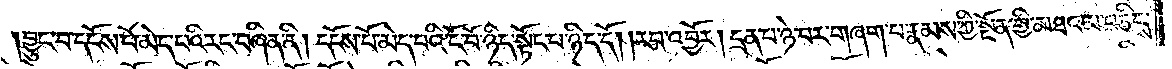བྱུང་བ་དངོས་པོ་མེད་པའི་རང་བཞིན་ནི། དངོས་པོ་མེད་པའི་ངོ་བོ་ཉིད་སྟོང་པ་ཉིད་དོ། །རབ་འབྱོར། དྲན་པ་ཉེ་བར་གཞག་པ་རྣམས་ཀྱི་སྔོན་གྱི་མཐའ་མ་བཅིངས་
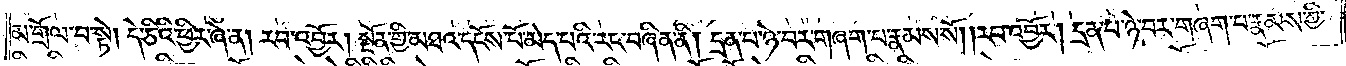མ་གྲོལ་བ་སྟེ། དེ་ཅིའི་ཕྱིར་ཞེ་ན། རབ་འབྱོར། སྔོན་གྱི་མཐའ་དངོས་པོ་མེད་པའི་རང་བཞིན་ནི། དྲན་པ་ཉེ་བར་གཞག་པ་རྣམས་སོ། །རབ་འབྱོར། དྲན་པ་ཉེ་བར་གཞག་པ་རྣམས་ཀྱི་
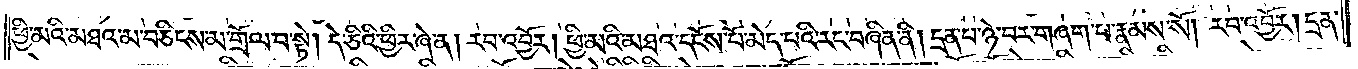ཕྱི་མའི་མཐའ་མ་བཅིངས་མ་གྲོལ་བ་སྟེ། དེ་ཅིའི་ཕྱིར་ཞེ་ན། རབ་འབྱོར། ཕྱི་མའི་མཐའ་དངོས་པོ་མེད་པའི་རང་བཞིན་ནི། དྲན་པ་ཉེ་བར་གཞག་པ་རྣམས་སོ། །རབ་འབྱོར། དྲན་
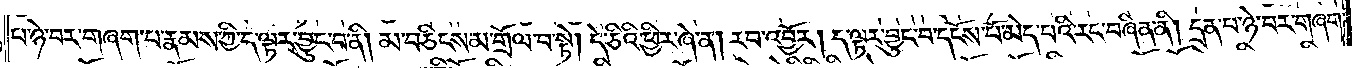པ་ཉེ་བར་གཞག་པ་རྣམས་ཀྱི་ད་ལྟར་བྱུང་བ་ནི། མ་བཅིངས་མ་གྲོལ་བ་སྟེ། དེ་ཅིའི་ཕྱིར་ཞེ་ན། རབ་འབྱོར། ད་ལྟར་བྱུང་བ་དངོས་པོ་མེད་པའི་རང་བཞིན་ནི། དྲན་པ་ཉེ་བར་གཞག་
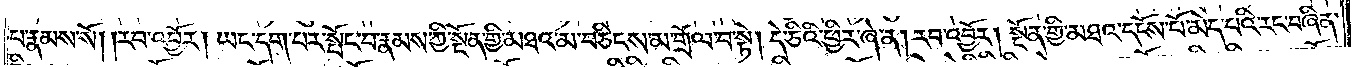པ་རྣམས་སོ། །རབ་འབྱོར། ཡང་དག་པར་སྤོང་བ་རྣམས་ཀྱི་སྔོན་གྱི་མཐའ་མ་བཅིངས་མ་གྲོལ་བ་སྟེ། དེ་ཅིའི་ཕྱིར་ཞེ་ན། རབ་འབྱོར། སྔོན་གྱི་མཐའ་དངོས་པོ་མེད་པའི་རང་བཞིན་
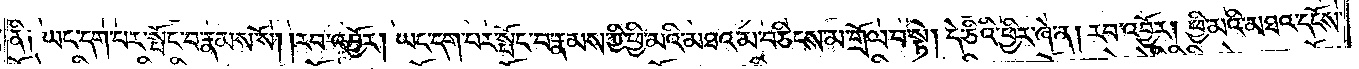ནི༑ ཡང་དག་པར་སྤོང་བ་རྣམས་སོ། །རབ་འབྱོར། ཡང་དག་པར་སྤོང་བ་རྣམས་ཀྱི་ཕྱི་མའི་མཐའ་མ་བཅིངས་མ་གྲོལ་བ་སྟེ། དེ་ཅིའི་ཕྱིར་ཞེ་ན། རབ་འབྱོར། ཕྱི་མའི་མཐའ་དངོས་
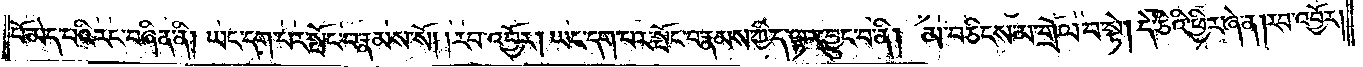པོ་མེད་པའི་རང་བཞིན་ནི། ཡང་དག་པར་སྤོང་བ་རྣམས་སོ། །རབ་འབྱོར། ཡང་དག་པར་སྤོང་བ་རྣམས་ཀྱི་ད་ལྟར་བྱུང་བ་ནི། མ་བཅིངས་མ་གྲོལ་བ་སྟེ། དེ་ཅིའི་ཕྱིར་ཞེ་ན། རབ་འབྱོར།
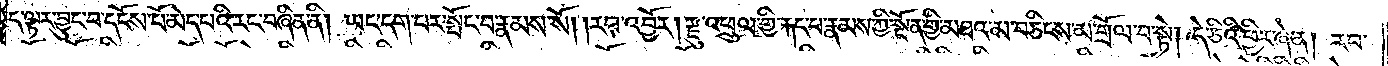ད་ལྟར་བྱུང་བ་དངོས་པོ་མེད་པའི་རང་བཞིན་ནི། ཡང་དག་པར་སྤོང་བ་རྣམས་སོ། །རབ་འབྱོར། རྫུ་འཕྲུལ་གྱི་རྐང་པ་རྣམས་ཀྱི་སྔོན་གྱི་མཐའ་མ་བཅིངས་མ་གྲོལ་བ་སྟེ། དེ་ཅིའི་ཕྱིར་ཞེ་ན། རབ་
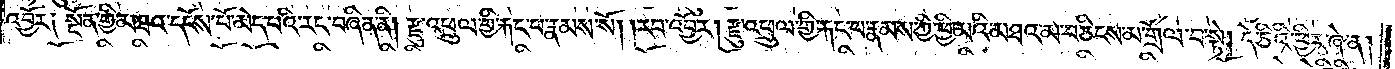འབྱོར༑ སྔོན་གྱི་མཐའ་དངོས་པོ་མེད་པའི་རང་བཞིན་ནི། རྫུ་འཕྲུལ་གྱི་རྐང་པ་རྣམས་སོ། །རབ་འབྱོར། རྫུ་འཕྲུལ་གྱི་རྐང་པ་རྣམས་ཀྱི་ཕྱི་མའི་མཐའ་མ་བཅིངས་མ་གྲོལ་བ་སྟེ། དེ་ཅིའི་ཕྱིར་ཞེ་ན།
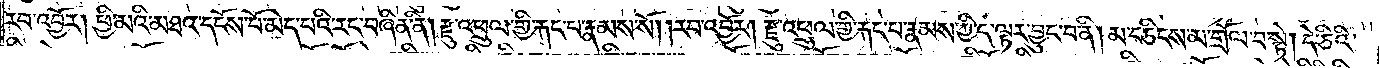རབ་འབྱོར། ཕྱི་མའི་མཐའ་དངོས་པོ་མེད་པའི་རང་བཞིན་ནི། རྫུ་འཕྲུལ་གྱི་རྐང་པ་རྣམས་སོ། །རབ་འབྱོར། རྫུ་འཕྲུལ་གྱི་རྐང་པ་རྣམས་ཀྱི་ད་ལྟར་བྱུང་བ་ནི། མ་བཅིངས་མ་གྲོལ་བ་སྟེ། དེ་ཅིའི་
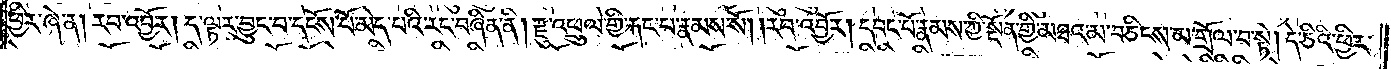ཕྱིར་ཞེ་ན། རབ་འབྱོར། ད་ལྟར་བྱུང་བ་དངོས་པོ་མེད་པའི་རང་བཞིན་ནི། རྫུ་འཕྲུལ་གྱི་རྐང་པ་རྣམས་སོ། །རབ་འབྱོར། དབང་པོ་རྣམས་ཀྱི་སྔོན་གྱི་མཐའ་མ་བཅིངས་མ་གྲོལ་བ་སྟེ། དེ་ཅིའི་ཕྱིར་
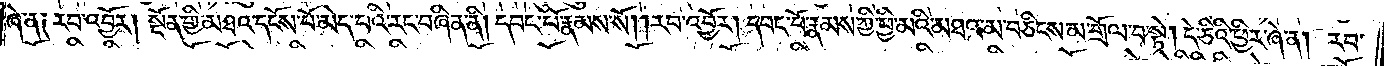ཞེ་ན༑ རབ་འབྱོར། སྔོན་གྱི་མཐའ་དངོས་པོ་མེད་པའི་རང་བཞིན་ནི། དབང་པོ་རྣམས་སོ། །རབ་འབྱོར། དབང་པོ་རྣམས་ཀྱི་ཕྱི་མའི་མཐའ་མ་བཅིངས་མ་གྲོལ་བ་སྟེ། དེ་ཅིའི་ཕྱིར་ཞེ་ན། རབ་
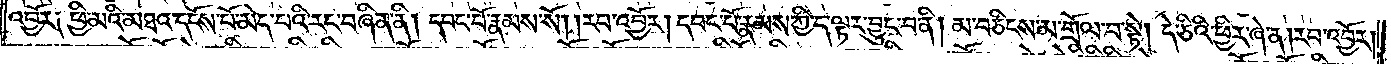འབྱོར༑ ཕྱི་མའི་མཐའ་དངོས་པོ་མེད་པའི་རང་བཞིན་ནི། དབང་པོ་རྣམས་སོ། །རབ་འབྱོར། དབང་པོ་རྣམས་ཀྱི་ད་ལྟར་བྱུང་བ་ནི། མ་བཅིངས་མ་གྲོལ་བ་སྟེ། དེ་ཅིའི་ཕྱིར་ཞེ་ན། རབ་འབྱོར།
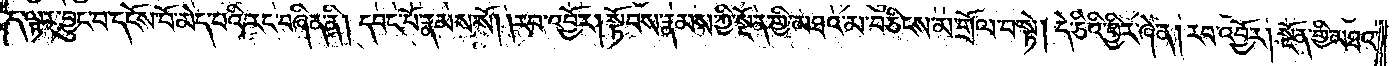ད་ལྟར་བྱུང་བ་དངོས་པོ་མེད་པའི་རང་བཞིན་ནི། དབང་པོ་རྣམས་སོ། །རབ་འབྱོར། སྟོབས་རྣམས་ཀྱི་སྔོན་གྱི་མཐའ་མ་བཅིངས་མ་གྲོལ་བ་སྟེ། དེ་ཅིའི་ཕྱིར་ཞེ་ན། རབ་འབྱོར། སྔོན་གྱི་མཐའ་
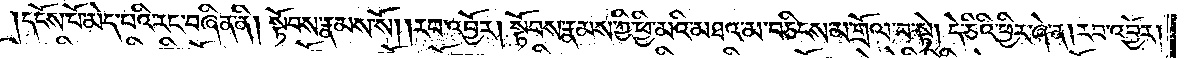དངོས་པོ་མེད་པའི་རང་བཞིན་ནི། སྟོབས་རྣམས་སོ། །རབ་འབྱོར། སྟོབས་རྣམས་ཀྱི་ཕྱི་མའི་མཐའ་མ་བཅིངས་མ་གྲོལ་བ་སྟེ། དེ་ཅིའི་ཕྱིར་ཞེ་ན། རབ་འབྱོར།
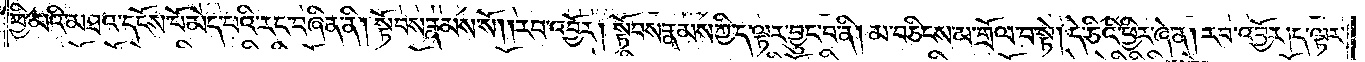ཕྱི་མའི་མཐའ་དངོས་པོ་མེད་པའི་རང་བཞིན་ནི། སྟོབས་རྣམས་སོ། །རབ་འབྱོར། སྟོབས་རྣམས་ཀྱི་ད་ལྟར་བྱུང་བ་ནི། མ་བཅིངས་མ་གྲོལ་བ་སྟེ། དེ་ཅིའི་ཕྱིར་ཞེ་ན། རབ་འབྱོར། ད་ལྟར་
